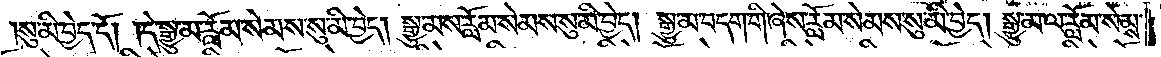སུ་མི་བྱེད་དོ། །དེ་སྒྱུ་མ་རློམ་སེམས་སུ་མི་བྱེད། སྒྱུ་མས་རློམ་སེམས་སུ་མི་བྱེད། སྒྱུ་མ་བདག་གི་ཞེས་རློམ་སེམས་སུ་མི་བྱེད། སྒྱུ་མ་ལ་རློམ་སེམས་
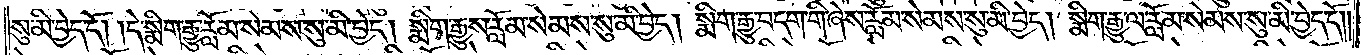སུ་མི་བྱེད་དོ། །དེ་སྨིག་རྒྱུ་རློམ་སེམས་སུ་མི་བྱེད། སྨིག་རྒྱུས་རློམ་སེམས་སུ་མི་བྱེད། སྨིག་རྒྱུ་བདག་གི་ཞེས་རློམ་སེམས་སུ་མི་བྱེད། སྨིག་རྒྱུ་ལ་རློམ་སེམས་སུ་མི་བྱེད་དོ། །
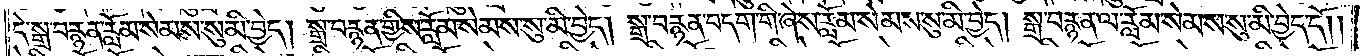དེ་སྒྲ་བརྙན་རློམ་སེམས་སུ་མི་བྱེད། སྒྲ་བརྙན་གྱིས་རློམ་སེམས་སུ་མི་བྱེད། སྒྲ་བརྙན་བདག་གི་ཞེས་རློམ་སེམས་སུ་མི་བྱེད། སྒྲ་བརྙན་ལ་རློམ་སེམས་སུ་མི་བྱེད་དོ། །
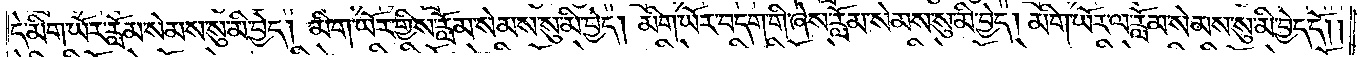དེ་མིག་ཡོར་རློམ་སེམས་སུ་མི་བྱེད། མིག་ཡོར་གྱིས་རློམ་སེམས་སུ་མི་བྱེད། མིག་ཡོར་བདག་གི་ཞེས་རློམ་སེམས་སུ་མི་བྱེད། མིག་ཡོར་ལ་རློམ་སེམས་སུ་མི་བྱེད་དོ། །
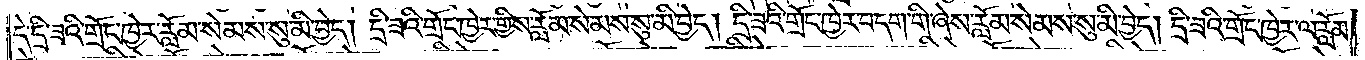དེ་དྲི་ཟའི་གྲོང་ཁྱེར་རློམ་སེམས་སུ་མི་བྱེད། དྲི་ཟའི་གྲོང་ཁྱེར་གྱིས་རློམ་སེམས་སུ་མི་བྱེད། དྲི་ཟའི་གྲོང་ཁྱེར་བདག་གི་ཞེས་རློམ་སེམས་སུ་མི་བྱེད། དྲི་ཟའི་གྲོང་ཁྱེར་ལ་རློམ་
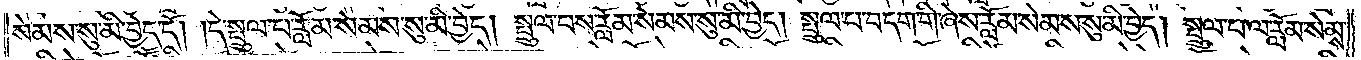སེམས་སུ་མི་བྱེད་དོ། །དེ་སྤྲུལ་པ་རློམ་སེམས་སུ་མི་བྱེད། སྤྲུལ་པས་རློམ་སེམས་སུ་མི་བྱེད། སྤྲུལ་པ་བདག་གི་ཞེས་རློམ་སེམས་སུ་མི་བྱེད། སྤྲུལ་པ་ལ་རློམ་སེམས་
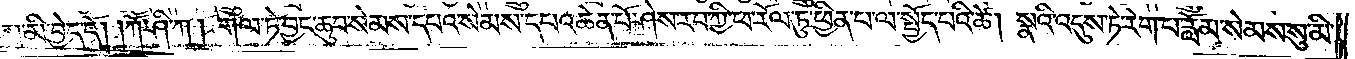སུ་མི་བྱེད་དོ། །ཀཽ་ཤི་ཀ། གལ་ཏེ་བྱང་ཆུབ་སེམས་དཔའ་སེམས་དཔའ་ཆེན་པོ་ཤེས་རབ་ཀྱི་ཕ་རོལ་ཏུ་ཕྱིན་པ་ལ་སྤྱོད་པའི་ཚེ། སྣའི་འདུས་ཏེ་རེག་པ་རློམ་སེམས་སུ་མི་
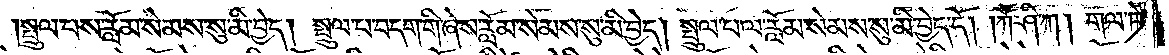སྤྲུལ་པས་རློམ་སེམས་སུ་མི་བྱེད། སྤྲུལ་པ་བདག་གི་ཞེས་རློམ་སེམས་སུ་མི་བྱེད། སྤྲུལ་པ་ལ་རློམ་སེམས་སུ་མི་བྱེད་དོ། །ཀཽ་ཤི་ཀ། གལ་ཏེ་
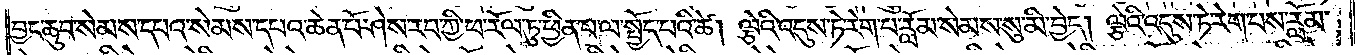བྱང་ཆུབ་སེམས་དཔའ་སེམས་དཔའ་ཆེན་པོ་ཤེས་རབ་ཀྱི་ཕ་རོལ་ཏུ་ཕྱིན་པ་ལ་སྤྱོད་པའི་ཚེ། ལྕེའི་འདུས་ཏེ་རེག་པ་རློམ་སེམས་སུ་མི་བྱེད། ལྕེའི་འདུས་ཏེ་རེག་པས་རློམ་
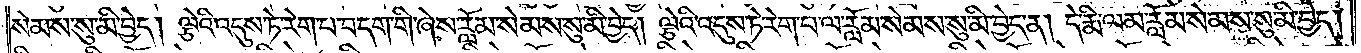སེམས་སུ་མི་བྱེད། ལྕེའི་འདུས་ཏེ་རེག་པ་བདག་གི་ཞེས་རློམ་སེམས་སུ་མི་བྱེད། ལྕེའི་འདུས་ཏེ་རེག་པ་ལ་རློམ་སེམས་སུ་མི་བྱེད་ན། དེ་རྨི་ལམ་རློམ་སེམས་སུ་མི་བྱེད།
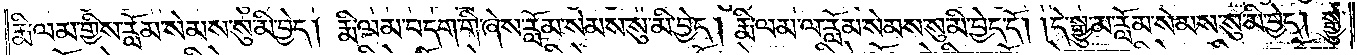རྨི་ལམ་གྱིས་རློམ་སེམས་སུ་མི་བྱེད། རྨི་ལམ་བདག་གི་ཞེས་རློམ་སེམས་སུ་མི་བྱེད། རྨི་ལམ་ལ་རློམ་སེམས་སུ་མི་བྱེད་དོ། །དེ་སྒྱུ་མ་རློམ་སེམས་སུ་མི་བྱེད། སྒྱུ་
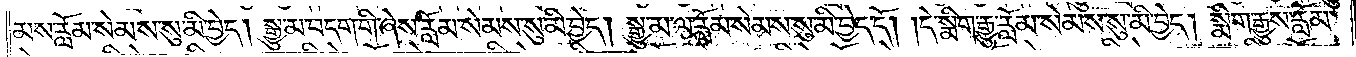མས་རློམ་སེམས་སུ་མི་བྱེད། སྒྱུ་མ་བདག་གི་ཞེས་རློམ་སེམས་སུ་མི་བྱེད། སྒྱུ་མ་ལ་རློམ་སེམས་སུ་མི་བྱེད་དོ། །དེ་སྨིག་རྒྱུ་རློམ་སེམས་སུ་མི་བྱེད། སྨིག་རྒྱུས་རློམ་
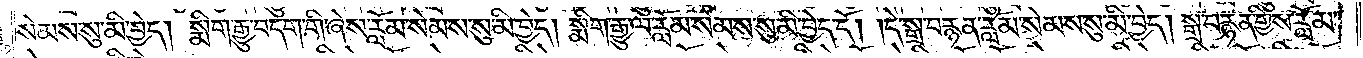སེམས་སུ་མི་བྱེད། སྨིག་རྒྱུ་བདག་གི་ཞེས་རློམ་སེམས་སུ་མི་བྱེད། སྨིག་རྒྱུ་ལ་རློམ་སེམས་སུ་མི་བྱེད་དོ། །དེ་སྒྲ་བརྙན་རློམ་སེམས་སུ་མི་བྱེད། སྒྲ་བརྙན་གྱིས་རློམ་
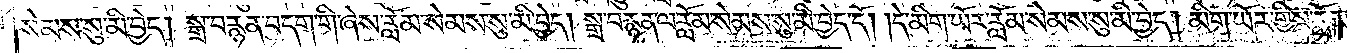སེམས་སུ་མི་བྱེད། སྒྲ་བརྙན་བདག་གི་ཞེས་རློམ་སེམས་སུ་མི་བྱེད། སྒྲ་བརྙན་ལ་རློམ་སེམས་སུ་མི་བྱེད་དོ། །དེ་མིག་ཡོར་རློམ་སེམས་སུ་མི་བྱེད། མིག་ཡོར་གྱིས་རློམ་
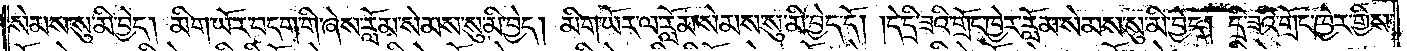སེམས་སུ་མི་བྱེད། མིག་ཡོར་བདག་གི་ཞེས་རློམ་སེམས་སུ་མི་བྱེད། མིག་ཡོར་ལ་རློམ་སེམས་སུ་མི་བྱེད་དོ། །དེ་དྲི་ཟའི་གྲོང་ཁྱེར་རློམ་སེམས་སུ་མི་བྱེད། དྲི་ཟའི་གྲོང་ཁྱེར་གྱིས་
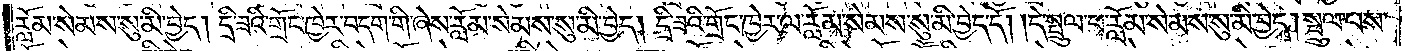རློམ་སེམས་སུ་མི་བྱེད། དྲི་ཟའི་གྲོང་ཁྱེར་བདག་གི་ཞེས་རློམ་སེམས་སུ་མི་བྱེད། དྲི་ཟའི་གྲོང་ཁྱེར་ལ་རློམ་སེམས་སུ་མི་བྱེད་དོ། །དེ་སྤྲུལ་པ་རློམ་སེམས་སུ་མི་བྱེད། སྤྲུལ་པས་
